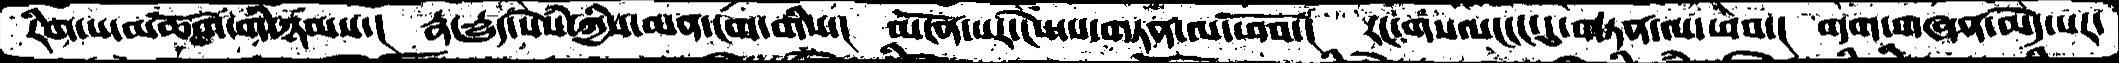རིག་པ་མཆོག་གི་ཉམས་།  རྣ་དྱུད་སེཾས་ཀྱིས་མན་ངག་གིས་།  མངོན་པར་ངེས་པ་གཏན་ལ་ཕོབ་།  རང་གསལངངང་དུ་གཏན་ལ་ཕབ་།  བདག་གཞན་མེད་པར་
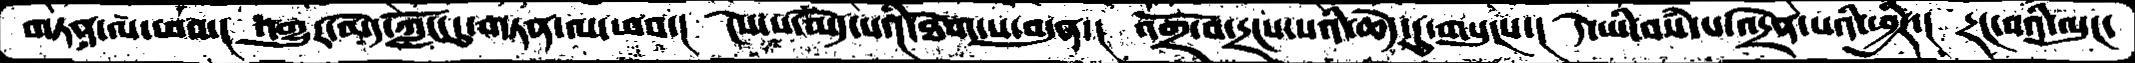གཏན་ལ་ཕབ་།  འགྱུར་མེད་ཀློང་དུ་གཏན་ལ་ཕབ་།  ངེས་པ་མེད་པའི་ཐེག་པ་བདུན་།  འགྲོ་བ་དྲངས་པའི་ཆེད་དུ་གསུངས་།  དེ་ཡི་བསཾ་པ་འདྲེན་པའི་ཕྱིར་།  དྲང་བའི་ལུང་
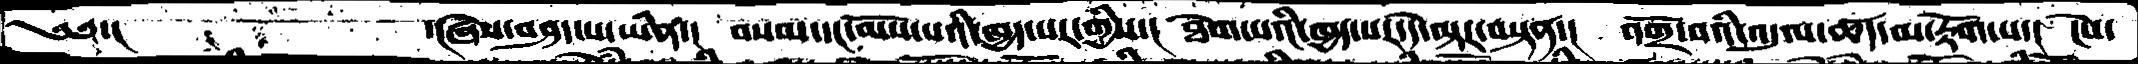༄༅་།         ་།ཞེས་བཤད་པ་ཡིན་།  བསམ་དང་མོས་པའི་ཁྱད་པར་གྱིས་།  ཐེག་པའི་ཁྱད་པར་དེ་ལྟར་བསྟན་།  འགྲོ་བའི་འདུལ་ཚད་མ་རྟོག་པ་།  ངེས་
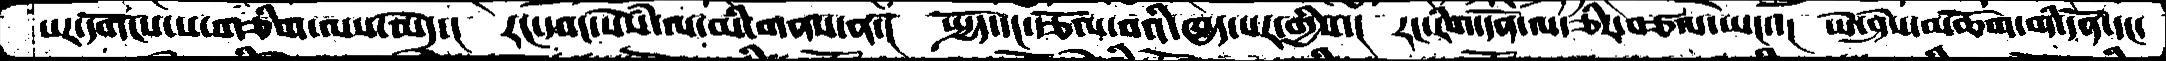པར་དགོངས་པ་གཅིག་ལས་མེད་།  རང་དབང་སེཾས་ལ་མི་གནས་ན་།   སྤྱོད་དང་རྩོལ་བའི་ཁྱད་པར་གྱིས་།  རང་རིག་དོན་ལ་ཅིར་བཙལ་ཡང་་།  ཡེ་ཤེས་མཆོག་གི་དོན་དང་
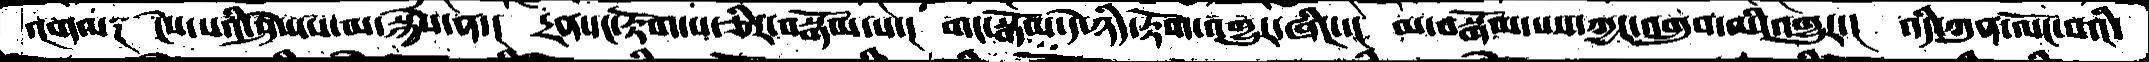་།གལ༑   ངེས་པའི་ཤེས་པ་མ་སྐྱེས་ན་།  དྲན་དང་རྟོག་པ་ཅིར་བསྒོམ་པ་།  གང་སྒོམ་དེ་ཉིད་རྟོག་འགྱུར་ཞིང་་།  མ་བསྒོམ་པས་ཀྱང་འགྲུབ་མི་འགྱུར་།  འདི་ཀུན་ལོང་བའི་
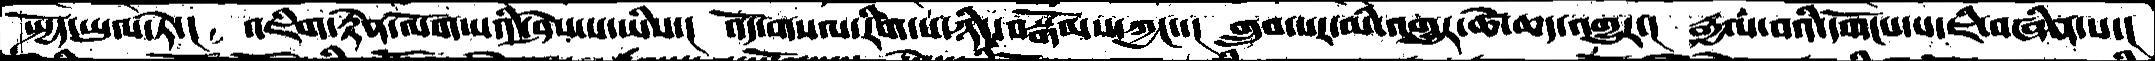སྤྱོད་ཡུལ་ཏེ་།  འཇིག་རྟེན་ལོག་པའི་ཤེས་པ་ཡིས་།  འདོ་གསལ་རིག་པ་ཉིད་བསྒོམས་ཀྱང་་།  གྲུབ་པར་མི་འགྱུར་ཚེ་ཆད་འགྱུར་།  རྒྱལ་བའི་དགོངས་པ་ཇི་བཞིན་པ་།
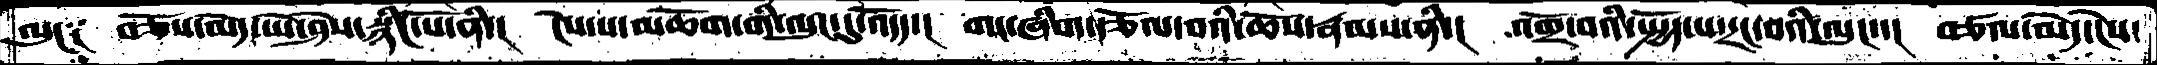ལུང༑  བཅོས་མེད་ཡེ་ཤེས་སྙིང་པོ་ནི་།  ངེས་པ་མཆོག་གི་ལུང་དུ་འདོད་།  གང་ཞིག་རྩོལ་བའི་ཆོས་རྣམས་ནི་།  འགྲོ་བའི་སྤྱོད་པ་དྲང་བའི་ལུང་་།  བཙལ་མེད་ངེས་
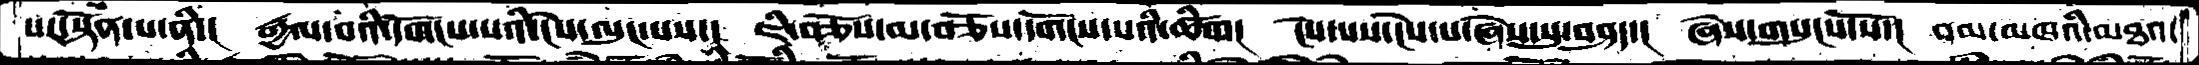པར་སྟོན་པ་ནི་།  རྒྱལ་བའི་དགོངས་པའི་ངེས་ལུང་པས་།  ཇི་བཅོས་མ་བཅོས་དགོངས་པའི་ཚིག།  ངེས་པས་ངེས་པ་ཞེས་སུ་བཤད་།  ཞེས་གསུངས་སོ་།  ནམ་མཁའི་མཐའ་
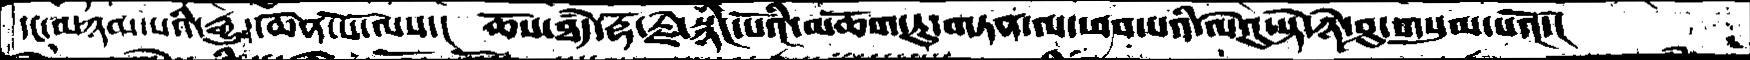དང་མཉམ་པའི་རྒྱུད་ཆེན་པོ་ལས་།  ཆོས་ཐཾད་རྡོ་རྗེ་སྙིང་པོའི་མཆོག་ཏུ་གཏན་ལ་ཕབ་པའི་ལེའུ་སྟེ་ཉེ་ཤུ་གསུམ་པའོ་།
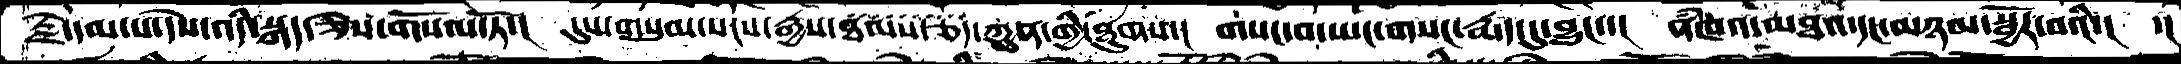རྗེ་དམ་པ་དེས་འདི་སྐད་ཅེས་གསོལ་ཏོ་།  དུས་གསུམ་སངས་རྒྱས་ཐམས་ཅད་ཀུན་གྱི་ཐུགས་།  གསང་བ་ཡང་གསང་རྨད་དུ་བྱུང་་།  ནཾཁའ་མཐའ་དང་མཉམ་སྦྱོར་བའི་།  ་།
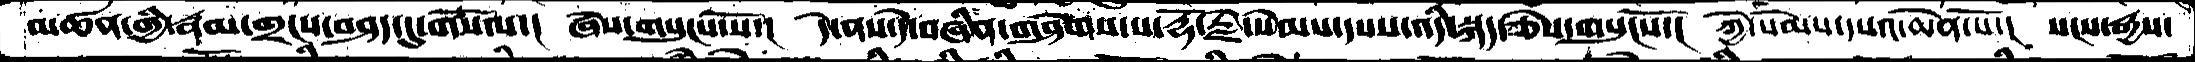མཚན་གྱི་རྣམ་གྲངས་བཤད་དུ་གསོལ་།   ཞེས་གསུངས་སོ་།  དེ་ནས་དེ་བཞིན་གཤེགས་པ་རྡོ་རྗེ་སེམས་དཔས་འདི་སྐད་ཅེས་གསུངསོ་།  ཀྱེ་སེམས་དཔའ་ཆེན་པོ་།  སངས་རྒྱས་
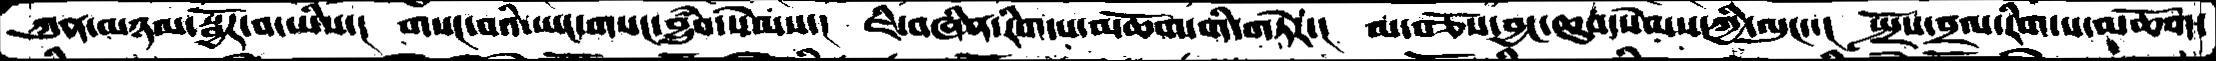ཀུན་མཉམ་སྦྱོར་བ་ཡིས་།  གསང་བའི་ཡང་གསང་བྱུཾབ་སེམས་།  ཇི་བཞིན་རིག་པ་མཆོག་གི་གཏེར་།  མ་བཅོས་བྱང་ཆུབ་སེམས་ཀྱི་ལུང་་།  སྤྲོས་བྲལ་རིག་པ་མཆོག་
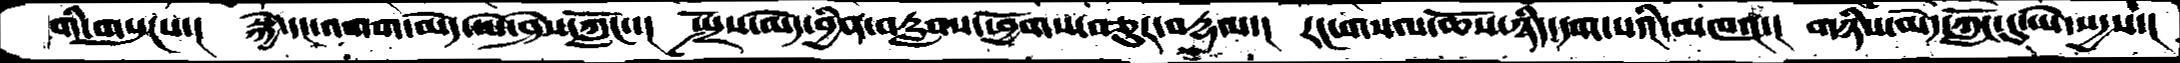གི་གསུངས་།  སྐྱེ་དང་འགག་མེད་ཡེ་ཤེས་ཀློང་་།   སྤྲོས་མེད་བྱིན་བརླབས་ཕྱོགས་བཅུར་བརྡལ་།   རང་གསལ་ཆོས་ཉིད་དག་པའི་མཁའ་།  གཉིས་མེད་ཀློང་དུ་ཡེ་སདྱས་།
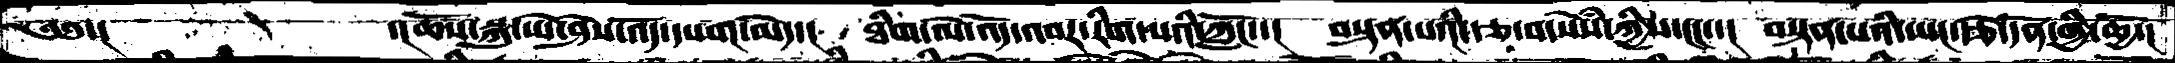༄༅་།          ་།ཆོས་སྐུ་ཡེ་ཤེས་འོད་དཔག་མེད་།   ཐིག་ལེ་འོད་འབར་རིག་པའི་ཀློང་་།  བསྟན་པའི་རྩ་བ་སེཾས་ཀྱིས་ངང་་།  བསྟན་པའི་ཡང་རྩེ་དོན་གྱི་ཆྱོ་།
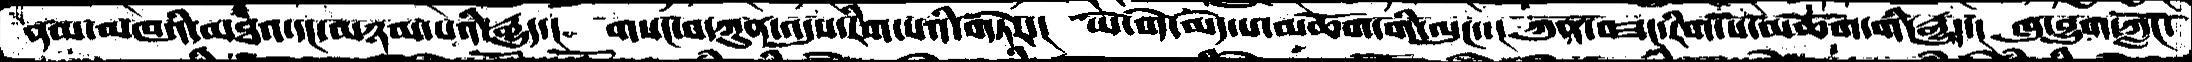ནམ་མཁའི་མཐའ་དང་མཉམ་པའི་རྒྱུད་།   གསང་བ་ཀུན་འདུས་རིག་པའི་གཏེར་།  ཡེ་བདེ་མེད་པ་མཆོག་གི་ལུང་་།  ཀུན་བཟང་རིག་པ་མཆོག་གི་རྒྱུད་།  ཁུ་བྱུག་ཀློང་
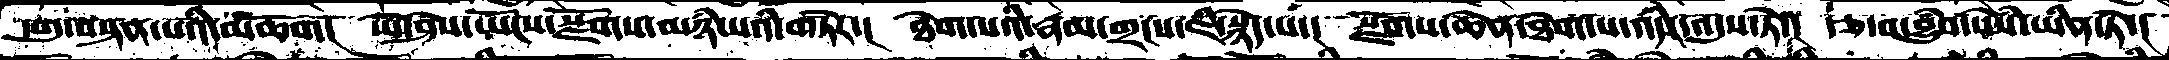དགུ་བསྟན་པའི་མཆོག།  ཡེ་ཤེས་ཡོངས་སྫོགས་མཉཾ་པའི་གཏེར་།  ཐེག་པའི་རྣམ་གྲངས་ཇི་སྙེད་པ་།  སྫོགས་ཆེན་ཐེག་པ་འདིར་འདུས་ཏེ་།  རྩ་བ་བྱུཾབ་སེཾས་ཡིན་ཏེ་།
